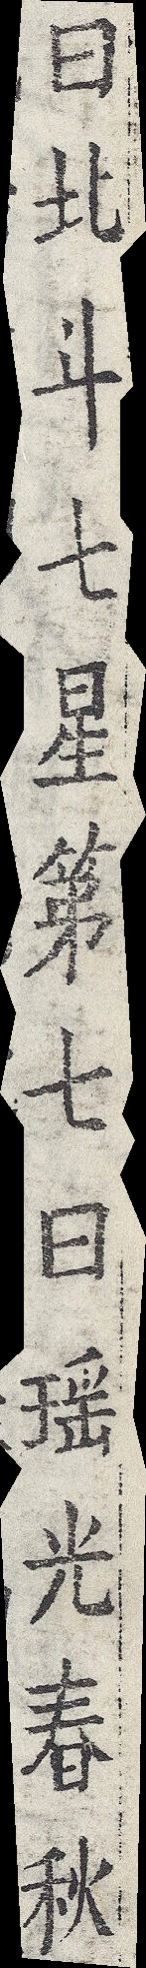曰北斗七星第七曰瑤光春秋
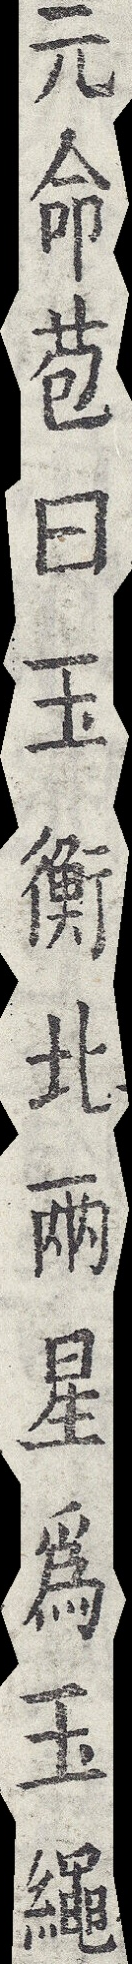元命苞曰玉衡北兩星為玉繩
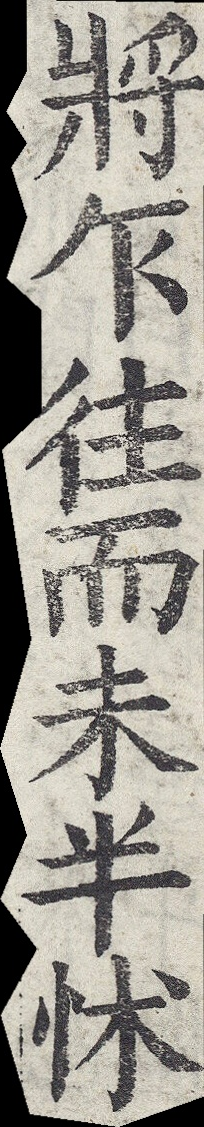將乍往而未半怵
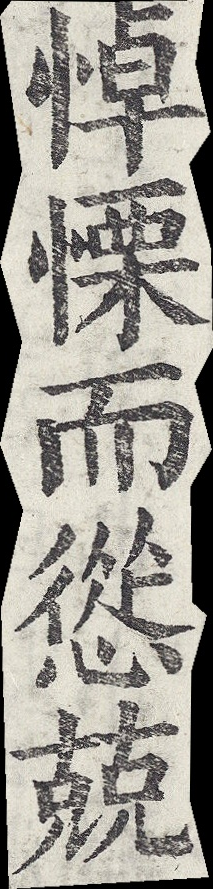悼慄而慫兢
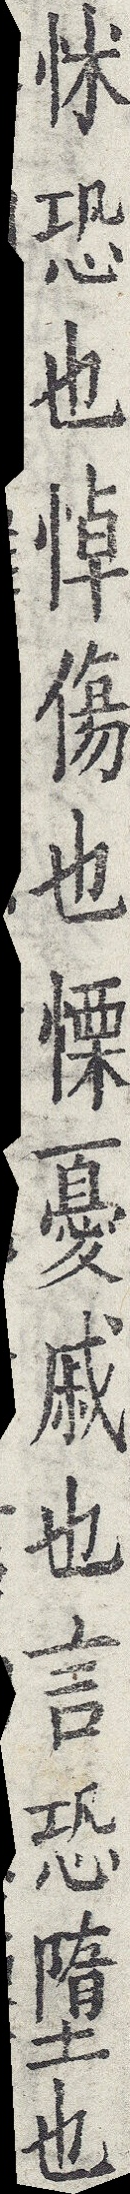怵恐也悼傷也慄憂戚也言恐墮也
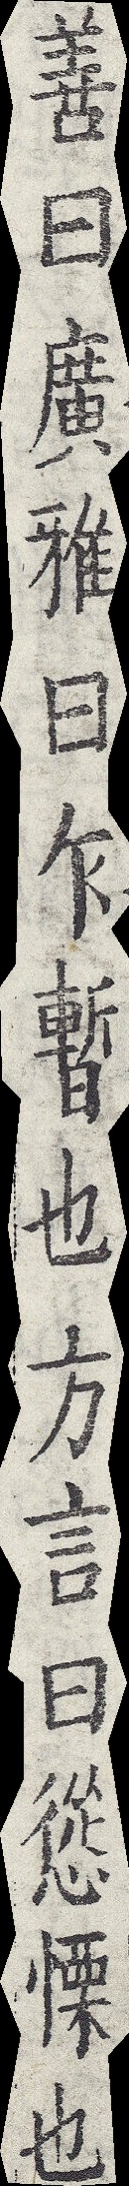善曰廣雅曰乍暫也方言曰慫慄也
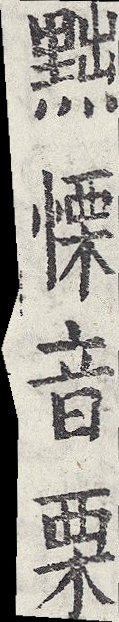黜慄音栗
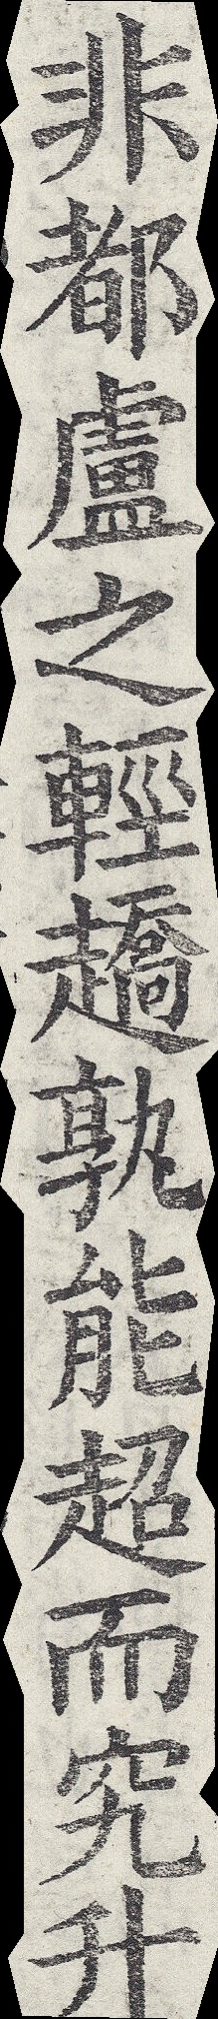非都盧之輕趫孰能超而究升
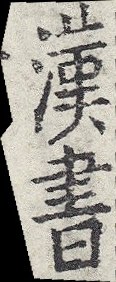漢書
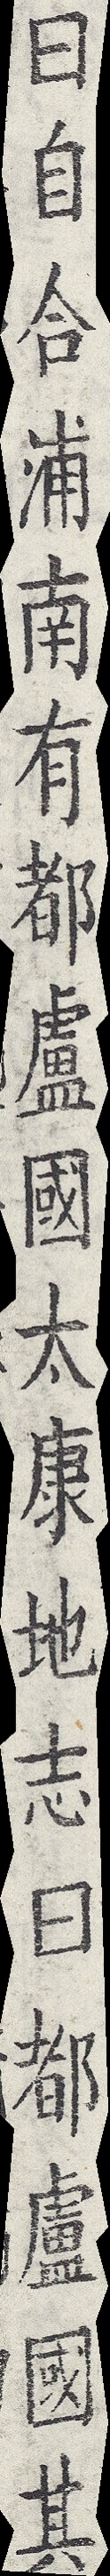曰自合浦南有都盧國太康地志曰都盧國其
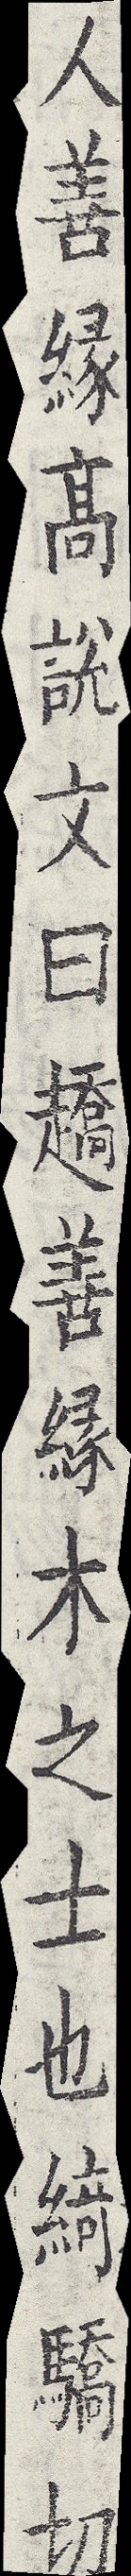人善緣高說文曰趫善緣木之士也綺驕切
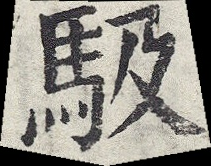馺
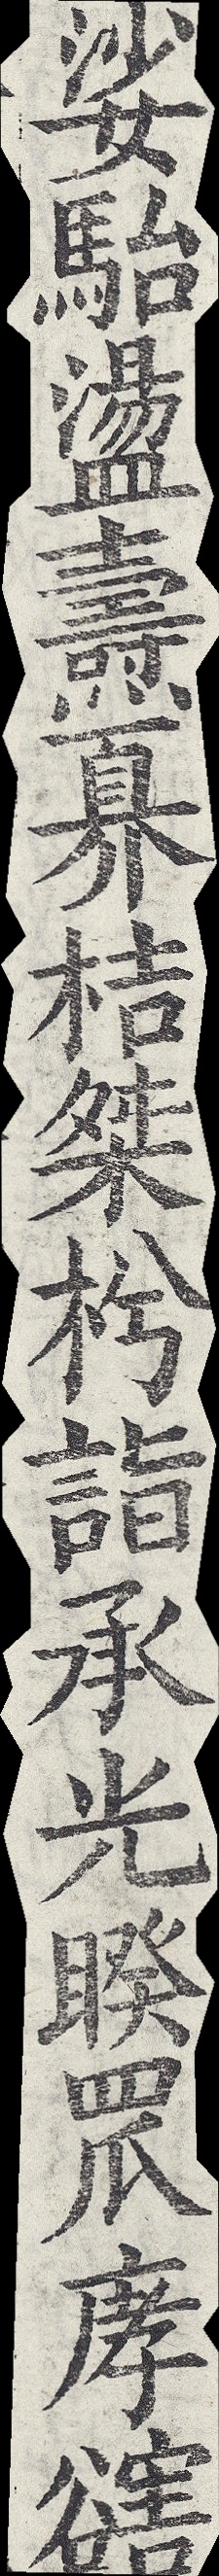娑駘盪燾奡桔桀枍詣承光睽罛庨豁
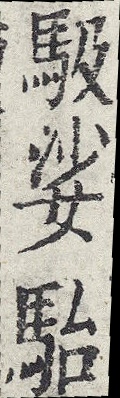馺娑駘
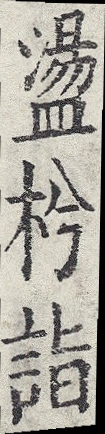盪枍詣
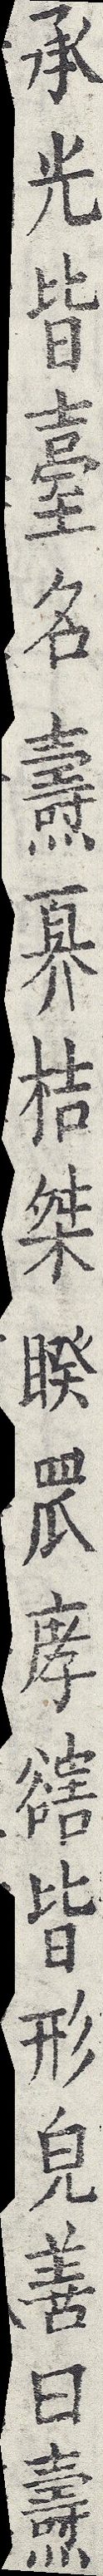承光皆臺名燾奡桔桀睽罛庨豁皆形貌善曰燾
